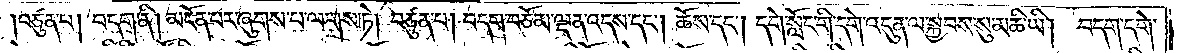།བཙུན་པ། བདག་ནི། མངོན་པར་ཞུགས་པ་ལགས་ཏེ། བཙུན་པ། བདག་བཅོམ་ལྡན་འདས་དང༌། ཆོས་དང༌། དགེ་སློང་གི་དགེ་འདུན་ལ་སྐྱབས་སུ་མཆི་ཡི། བདག་དགེ་
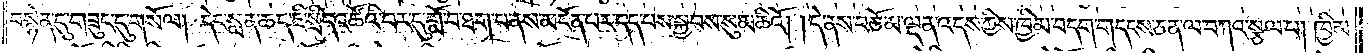བསྙེན་དུ་གཟུང་དུ་གསོལ། དེང་སླན་ཆད་ཇི་སྲིད་འཚོའི་བར་དུ་གློ་བ་ཐག་པ་ནས་མངོན་པར་དད་པས་སྐྱབས་སུ་མཆིའོ། །དེ་ནས་བཅོམ་ལྡན་འདས་ཀྱིས་ཁྱིམ་བདག་གདངས་ཅན་ལ་བཀའ་སྩལ་པ། ཁྱིམ་
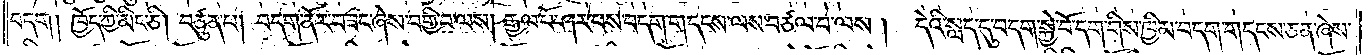བདག །ཁྱོད་ཀྱི་མིང་ཅི། བཙུན་པ། བདག་ནོར་བཟང་ཞེས་བགྱི་བ་ལས། རྒྱལ་པོ་ཤར་པས་བདག་གདངས་ལས་བཙལ་བ་ལས། དེའི་སླད་དུ་བདག་སྐྱེ་བོ་དག་གིས་ཁྱིམ་བདག་གདངས་ཅན་ཞེས་
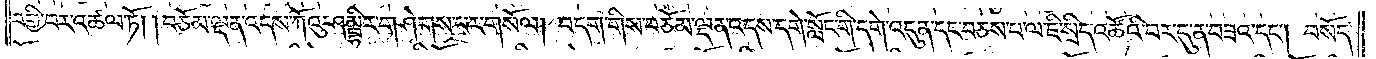བགྱི་བར་འཚལ་ཏོ། །བཅོམ་ལྡན་འདས་ཀོའུ་ཤམྦྷིར་གཤེགས་པར་གསོལ། བདག་གིས་བཅོམ་ལྡན་འདས་དགེ་སློང་གི་དགེ་འདུན་དང་བཅས་པ་ལ་ཇི་སྲིད་འཚོའི་བར་དུ་ན་བཟའ་དང༌། བསོད་
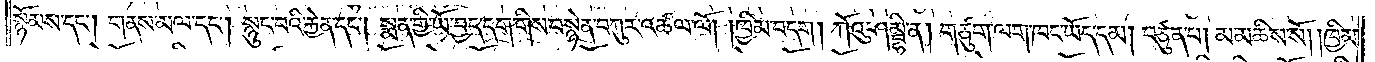སྙོམས་དང༌། གནས་མལ་དང༌། སྙུང་བའི་རྐྱེན་དང༌། སྨན་གྱི་ཡོ་བྱད་དག་གིས་བསྙེན་བཀུར་འཚལ་ལོ། །ཁྱིམ་བདག །ཀོའུ་ཤམྦྷི་ན། གཙུག་ལག་ཁང་ཡོད་དམ། བཙུན་པ། མ་མཆིས་སོ། །ཁྱིམ་
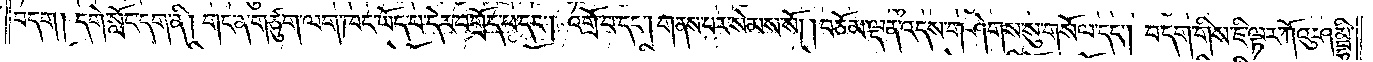བདག །དགེ་སློང་དག་ནི། གང་ན་གཙུག་ལག་ཁང་ཡོད་པ་དེར་བགྲོད་པ་དང༌། འགྲོ་བ་དང༌། གནས་པར་སེམས་སོ། །བཅོམ་ལྡན་འདས་གཤེགས་སུ་གསོལ་དང༌། བདག་གིས་ཇི་ལྟར་ཀོའུ་ཤམྦྷི་
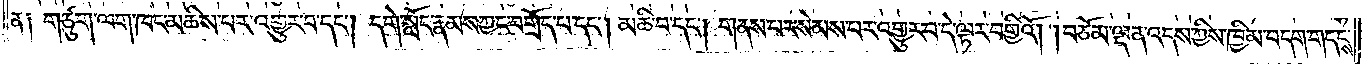ན༑ གཙུག་ལག་ཁང་མཆིས་པར་འགྱུར་བ་དང༌། དགེ་སློང་རྣམས་ཀྱང་བགྲོད་པ་དང༌། མཆི་བ་དང༌། གནས་པར་སེམས་པར་འགྱུར་བ་དེ་ལྟར་བགྱིའོ། །བཅོམ་ལྡན་འདས་ཀྱིས་ཁྱིམ་བདག་གདངས་
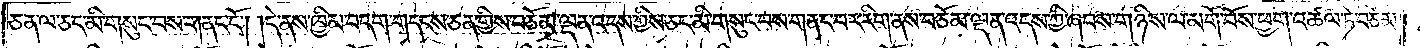ཅན་ལ་ཅང་མི་གསུང་བས་གནང་ངོ༌། །དེ་ནས་ཁྱིམ་བདག་གདངས་ཅན་གྱིས་བཅོམ་ལྡན་འདས་ཀྱིས་ཅང་མི་གསུང་བས་གནང་བར་རིག་ནས་བཅོམ་ལྡན་འདས་ཀྱི་ཞབས་གཉིས་ལ་མགོ་བོས་ཕྱག་འཚལ་ཏེ་བཅོམ་
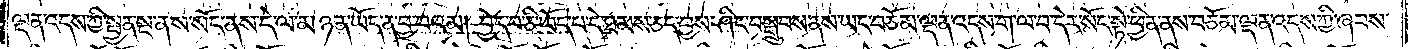ལྡན་འདས་ཀྱི་སྤྱན་སྔ་ནས་སོང་ནས་དེ་ལ་མཉན་ཡོད་ན་བྱ་བའམ། བྱེད་པ་ཅི་ཡོད་པ་དེ་ཐམས་ཅད་བྱས་ཤིང༌། བསྒྲུབས་ནས་ཡང་བཅོམ་ལྡན་འདས་ག་ལ་བ་དེར་སོང་སྟེ་ཕྱིན་ནས་བཅོམ་ལྡན་འདས་ཀྱིས་ཞབས་
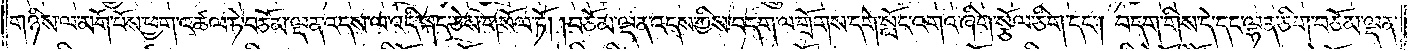གཉིས་ལ་མགོ་བོས་ཕྱག་འཚལ་ཏེ་བཅོམ་ལྡན་འདས་ལ་འདི་སྐད་ཅེས་གསོལ་ཏོ། །བཅོམ་ལྡན་འདས་ཀྱིས་བདག་ལ་གྲོགས་དགེ་སློང་འགའ་ཞིག་སྩོལ་ཅིག་དང༌། བདག་གིས་དེ་དང་ལྷན་ཅིག་བཅོམ་ལྡན་
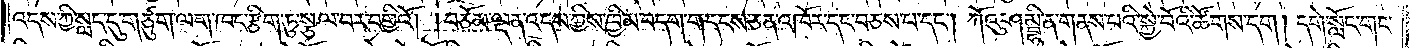འདས་ཀྱི་སླད་དུ་གཙུག་ལག་ཁང་རྩིག་ཏུ་སྩལ་བར་བགྱིའོ། །བཅོམ་ལྡན་འདས་ཀྱིས་ཁྱིམ་བདག་གདངས་ཅན་འཁོར་དང་བཅས་པ་དང༌། ཀོའུ་ཤམྦྷི་ན་གནས་པའི་སྐྱེ་བོའི་ཚོགས་དག །དགེ་སློང་གང་
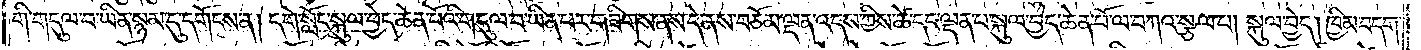གི་གདུལ་བ་ཡིན་སྙམ་དུ་དགོངས་ན། དགེ་སློང་སྐུལ་བྱེད་ཆེན་པོའི་གདུལ་བ་ཡིན་པར་གཟིགས་ནས་དེ་ནས་བཅོམ་ལྡན་འདས་ཀྱིས་ཚེ་དང་ལྡན་པ་སྐུལ་བྱེད་ཆེན་པོ་ལ་བཀའ་སྩལ་པ། སྐུལ་བྱེད། ཁྱིམ་བདག་
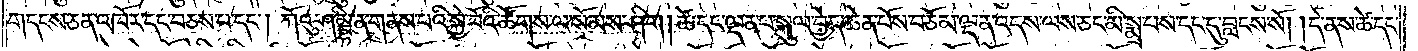གདངས་ཅན་འཁོར་དང་བཅས་པ་དང༌། ཀོའུ་ཤམྦྷི་ན་གནས་པའི་སྐྱེ་བོའི་ཚོགས་ལ་སོམས་ཤིག །ཚེ་དང་ལྡན་པ་སྐུལ་བྱེད་ཆེན་པོས་བཅོམ་ལྡན་འདས་ལས་ཅང་མི་སྨྲ་པས་དང་དུ་བླངས་སོ། །དེ་ནས་ཚེ་དང་
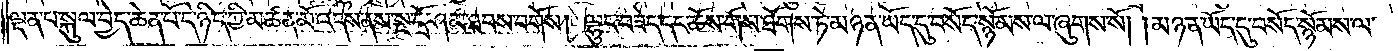ལྡན་པ་སྐུལ་བྱེད་ཆེན་པོ་དེ་ཉིད་ཀྱི་མཚན་མོ་འདས་ནས་སྔ་དྲོ་ཤམ་ཐབས་བགོས། ལྷུང་བཟེད་དང་ཆོས་གོས་ཐོགས་ཏེ་མཉན་ཡོད་དུ་བསོད་སྙོམས་ལ་ཞུགས་སོ། །མཉན་ཡོད་དུ་བསོད་སྙོམས་ལ་
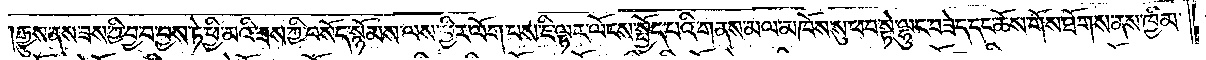།རྒྱུས་ནས་ཟས་ཀྱི་བྱ་བ་བྱས་ཏེ་ཕྱི་མའི་ཟས་ཀྱི་བསོད་སྙོམས་ལས་ཕྱིར་ལོག་པས་ཇི་ལྟར་ལོངས་སྤྱོད་པའི་གནས་མལ་མཁོས་སུ་ཕབ་སྟེ་ལྷུང་བཟེད་དང་ཆོས་གོས་ཐོགས་ནས་ཁྱིམ་
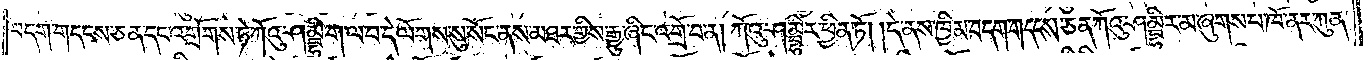བདག་གདངས་ཅན་དང་འགྲོགས་ཏེ་ཀོའུ་ཤམྦྷི་ག་ལ་བ་དེ་ལོགས་སུ་སོང་ནས་མཐར་གྱིས་རྒྱུ་ཞིང་འགྲོ་བ་ན། ཀོའུ་ཤམྦྷིར་ཕྱིན་ཏོ། །དེ་ནས་ཁྱིམ་བདག་གདངས་ཅན་ཀོའུ་ཤམྦྷིར་མ་ཞུགས་པ་ཁོ་ནར་ཀུན་
